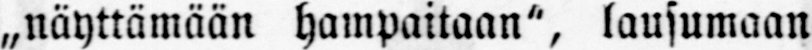„näyttämään hampaitaan", lausumaan
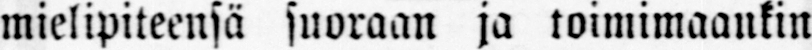mielipiteensä suoraan ja toimimaankin
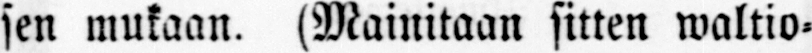sen mukaan. (Mainitaan sitten waltio-
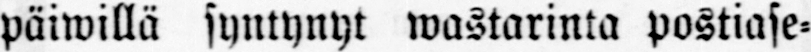päiwillä syntynyt wastarinta postiase-
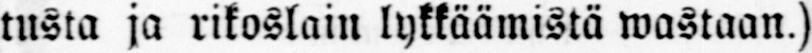tusta ja rikoslain lykkäämistä wastaan.)
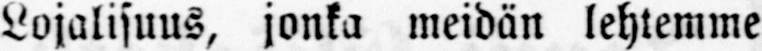Lojalisuus, jonka meidän lehtemme
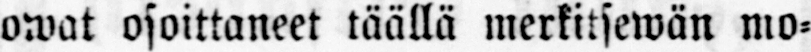owat osoittaneet täällä merkitsewän mo-
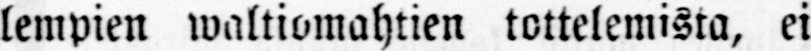lempien waltiomahtien tottelemista, ei
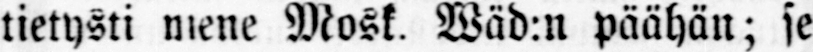tietysti mene Mosk. Wäd:n päähän; se
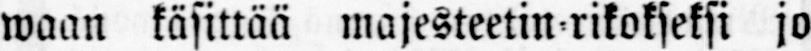waan käsittää majesteetin-rikokseksi jo
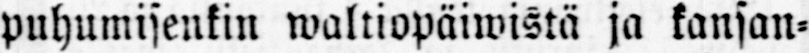puhumisenkin waltiopäiwistä ja kansan-
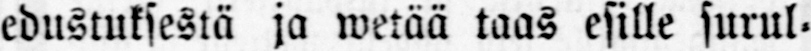edustuksestä ja wetää taas esille surut-
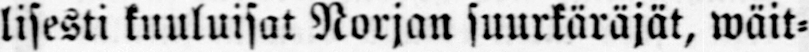lisesti kuuluisat Norjan suurkäräjät, wäit-
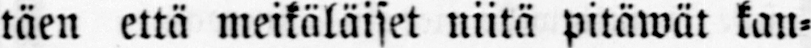täen että meikäläiset niitä pitäwät kan-
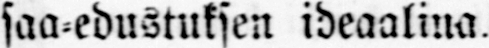saa-edustuksen ideaalina.
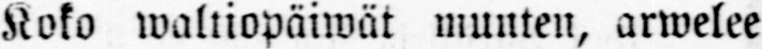Koko waltiopäiwät muuten, arwelee
